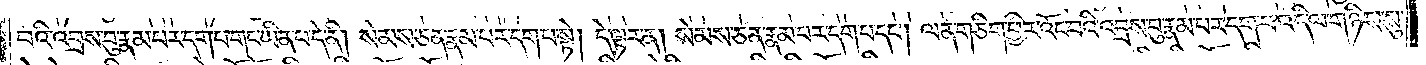བའི་འབྲས་བུ་རྣམ་པར་དག་པ་གང་ཡིན་པ་དེ་ནི། སེམས་ཅན་རྣམ་པར་དག་པ་སྟེ། དེ་ལྟར་ན། སེམས་ཅན་རྣམ་པར་དག་པ་དང༌། ལན་ཅིག་ཕྱིར་འོང་བའི་འབྲས་བུ་རྣམ་པར་དག་པ་འདི་ལ་གཉིས་སུ་
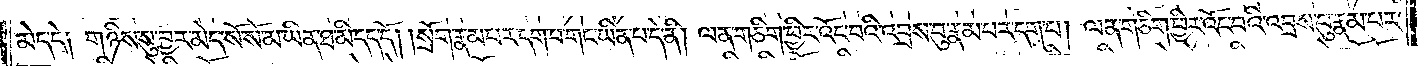མེད་དེ། གཉིས་སུ་བྱར་མེད་སོ་སོ་མ་ཡིན་ཐ་མི་དད་དོ། །སྲོག་རྣམ་པར་དག་པ་གང་ཡིན་པ་དེ་ནི། ལན་ཅིག་ཕྱིར་འོང་བའི་འབྲས་བུ་རྣམ་པར་དག་པ། ལན་ཅིག་ཕྱིར་འོང་བའི་འབྲས་བུ་རྣམ་པར་
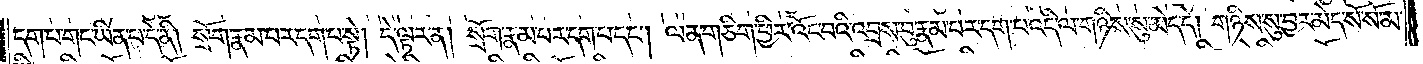དག་པ་གང་ཡིན་པ་དེ་ནི། སྲོག་རྣམ་པར་དག་པ་སྟེ། དེ་ལྟར་ན། སྲོག་རྣམ་པར་དག་པ་དང༌། ལན་ཅིག་ཕྱིར་འོང་བའི་འབྲས་བུ་རྣམ་པར་དག་པ་འདི་ལ་གཉིས་སུ་མེད་དེ། གཉིས་སུ་བྱར་མེད་སོ་སོ་མ་
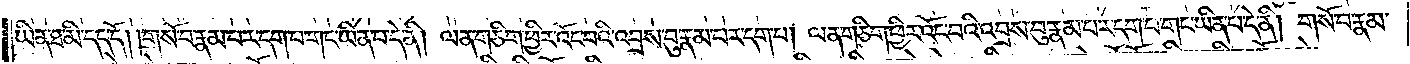ཡིན་ཐ་མི་དད་དོ། །གསོ་བ་རྣམ་པར་དག་པ་གང་ཡིན་པ་དེ་ནི། ལན་ཅིག་ཕྱིར་འོང་བའི་འབྲས་བུ་རྣམ་པར་དག་པ། ལན་ཅིག་ཕྱིར་འོང་བའི་འབྲས་བུ་རྣམ་པར་དག་པ་གང་ཡིན་པ་དེ་ནི། གསོ་བ་རྣམ་
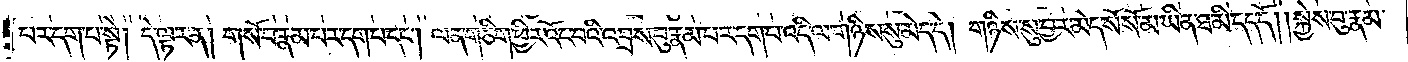པར་དག་པ་སྟེ། དེ་ལྟར་ན། གསོ་བ་རྣམ་པར་དག་པ་དང༌། ལན་ཅིག་ཕྱིར་འོང་བའི་འབྲས་བུ་རྣམ་པར་དག་པ་འདི་ལ་གཉིས་སུ་མེད་དེ། གཉིས་སུ་བྱར་མེད་སོ་སོ་མ་ཡིན་ཐ་མི་དད་དོ། །སྐྱེས་བུ་རྣམ་
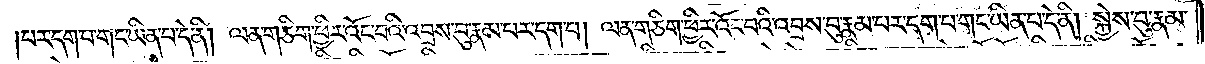པར་དག་པ་གང་ཡིན་པ་དེ་ནི། ལན་ཅིག་ཕྱིར་འོང་བའི་འབྲས་བུ་རྣམ་པར་དག་པ། ལན་ཅིག་ཕྱིར་འོང་བའི་འབྲས་བུ་རྣམ་པར་དག་པ་གང་ཡིན་པ་དེ་ནི། སྐྱེས་བུ་རྣམ་
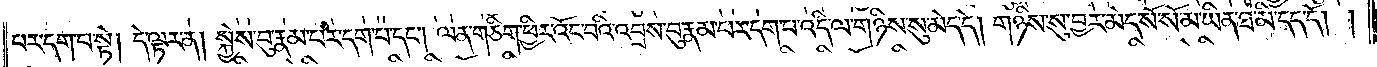པར་དག་པ་སྟེ། དེ་ལྟར་ན། སྐྱེས་བུ་རྣམ་པར་དག་པ་དང༌། ལན་ཅིག་ཕྱིར་འོང་བའི་འབྲས་བུ་རྣམ་པར་དག་པ་འདི་ལ་གཉིས་སུ་མེད་དེ། གཉིས་སུ་བྱར་མེད་སོ་སོ་མ་ཡིན་ཐ་མི་དད་དོ། །
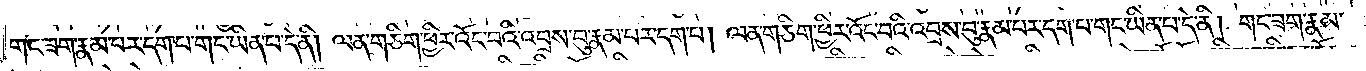གང་ཟག་རྣམ་པར་དག་པ་གང་ཡིན་པ་དེ་ནི། ལན་ཅིག་ཕྱིར་འོང་བའི་འབྲས་བུ་རྣམ་པར་དག་པ། ལན་ཅིག་ཕྱིར་འོང་བའི་འབྲས་བུ་རྣམ་པར་དག་པ་གང་ཡིན་པ་དེ་ནི། གང་ཟག་རྣམ་
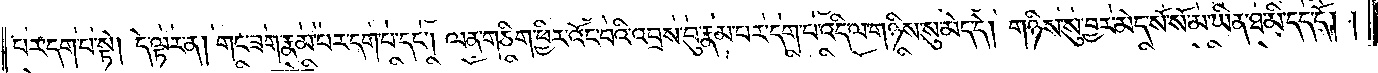པར་དག་པ་སྟེ། དེ་ལྟར་ན། གང་ཟག་རྣམ་པར་དག་པ་དང༌། ལན་ཅིག་ཕྱིར་འོང་པའི་འབྲས་བུ་རྣམ་པར་དག་པ་འདི་ལ་གཉིས་སུ་མེད་དེ། གཉིས་སུ་བྱར་མེད་སོ་སོ་མ་ཡིན་ཐ་མི་དད་དོ། །
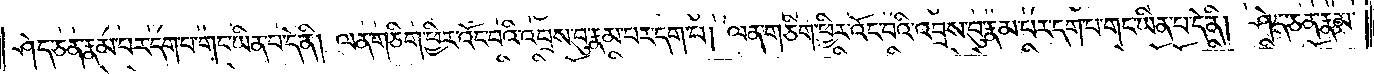ཤེད་ཅན་རྣམ་པར་དག་པ་གང་ཡིན་པ་དེ་ནི། ལན་ཅིག་ཕྱིར་འོང་བའི་འབྲས་བུ་རྣམ་པར་དག་པ། ལན་ཅིག་ཕྱིར་འོང་བའི་འབྲས་བུ་རྣམ་པར་དག་པར་གང་ཡིན་པ་དེ་ནི། ཤེད་ཅན་རྣམ་
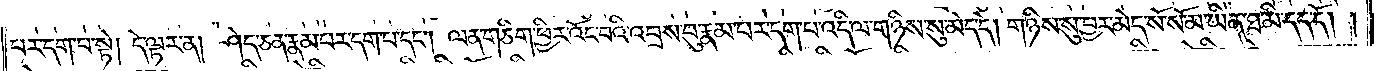པར་དག་པ་སྟེ། དེ་ལྟར་ན། ཤེད་ཅན་རྣམ་པར་དག་པ་དང༌། ལན་ཅིག་ཕྱིར་འོང་བའི་འབྲས་བུ་རྣམ་པར་དག་པ་འདི་ལ་གཉིས་སུ་མེད་དེ། གཉིས་སུ་བྱར་མེད་སོ་སོ་མ་ཡིན་ཐ་མི་དད་དོ། །
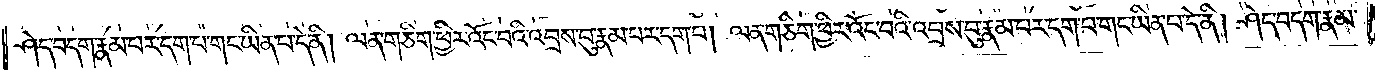ཤེད་བདག་རྣམ་པར་དག་པ་གང་ཡིན་པ་དེ་ནི། ལན་ཅིག་ཕྱིར་འོང་བའི་འབྲས་བུ་རྣམ་པར་དག་པ། ལན་ཅིག་ཕྱིར་འོང་བའི་འབྲས་བུ་རྣམ་པར་དག་པ་གང་ཡིན་པ་དེ་ནི། ཤེད་བདག་རྣམ་
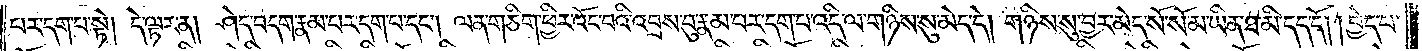པར་དག་པ་སྟེ། དེ་ལྟར་ན། ཤེད་བདག་རྣམ་པར་དག་པ་དང༌། ལན་ཅིག་ཕྱིར་འོང་བའི་འབྲས་བུ་རྣམ་པར་དག་པ་འདི་ལ་གཉིས་སུ་མེད་དེ། གཉིས་སུ་བྱར་མེད་སོ་སོ་མ་ཡིན་ཐ་མི་དད་དོ། །བྱེད་པ་
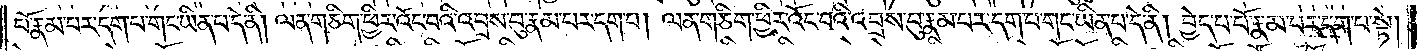པོ་རྣམ་པར་དག་པ་གང་ཡིན་པ་དེ་ནི། ལན་ཅིག་ཕྱིར་འོང་བའི་འབྲས་བུ་རྣམ་པར་དག་པ། ལན་ཅིག་ཕྱིར་འོང་བའི་འབྲས་བུ་རྣམ་པར་དག་པ་གང་ཡིན་པ་དེ་ནི། བྱེད་པ་པོ་རྣམ་པར་དག་པ་སྟེ།
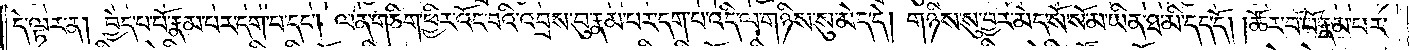དེ་ལྟར། ན་བྱེད་པ་པོ་རྣམ་པར་དག་པ་དང༌། ལན་ཅིག་ཕྱིར་འོང་བའི་འབྲས་བུ་རྣམ་པར་དག་པ་འདི་ལ་གཉིས་སུ་མེད་དེ། གཉིས་སུ་བྱར་མེད་སོ་སོ་མ་ཡིན་པ་ཐ་མི་དད་དོ། །ཚོར་བ་པོ་རྣམ་པར་
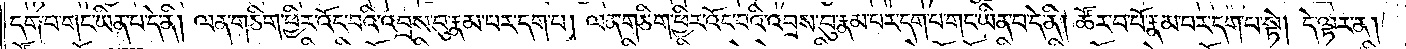དག་པ་གང་ཡིན་པ་དེ་ནི། ལན་ཅིག་ཕྱིར་འོང་བའི་འབྲས་བུ་རྣམ་པར་དག་པ། ལན་ཅིག་ཕྱིར་འོང་བའི་འབྲས་བུ་རྣམ་པར་དག་པ་གང་ཡིན་པ་དེ་ནི། ཚོར་བ་པོ་རྣམ་པར་དག་པ་སྟེ། དེ་ལྟར་ན།
